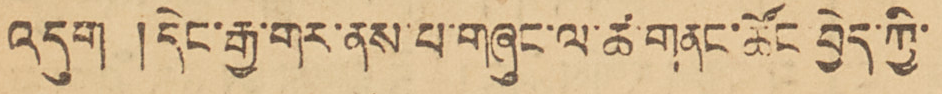འདུག །དེང་རྒྱ་གར་ནས་པ་གཞུང་ལ་ཚ་གནང་ཚོང བྱེད་ཀྱི་
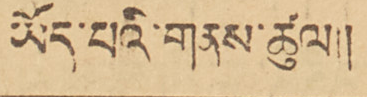ཡོད་པའི་གནས་ཚུལ།།
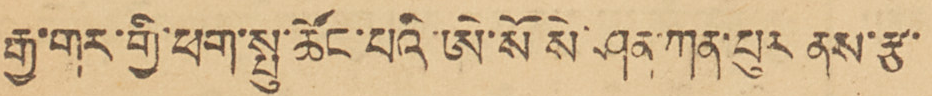རྒྱ་གར་གྱི་ཕག་སྤུ་ཚོང་པའི་ཨེ་སོ སེ་ཤན་ཀན་པུར ནས་རྩ་
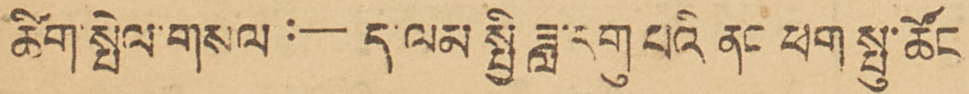ཚིག་སྤེལ་གསལ་:—ད་ལམསྤྱི ཟླ་དགུ པའི ནང ཕག སྤུ་ཚོང
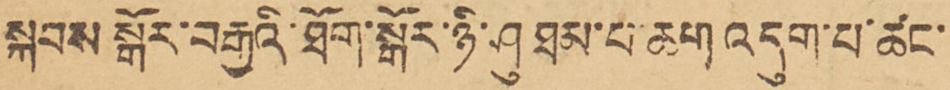སྐབས སྒོར་བརྒྱའི་ཐོག་སྒོར་ཉི་ཤུ ཐམ་པ་ཆག་འདུག་པ་ཚང་
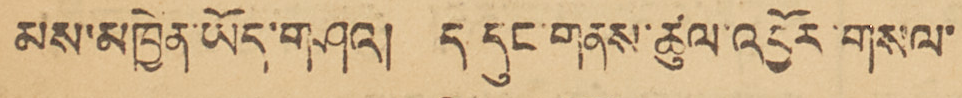མས་མཁྱེན་ཡོད་གཤའ། ད དུང་གནས་ཚུལ་འབྱོར་གསལ་
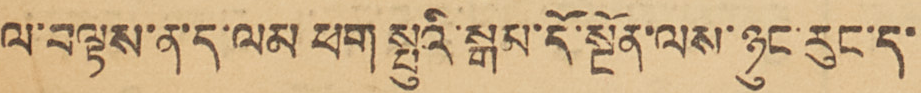ལ་བལྟས་ན་ད་ལམ ཕག སྤུའི་སྒམ་དོ་སྔོན་ལས་ཉུང་རུང་ད་
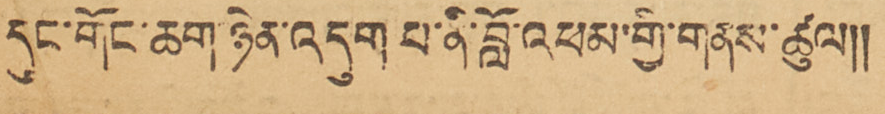དུང་གོང་ཆག་ཉེན་འདུག པ་ནི་བློ་འཕམ་གྱི་གནས་ཚུལ།།
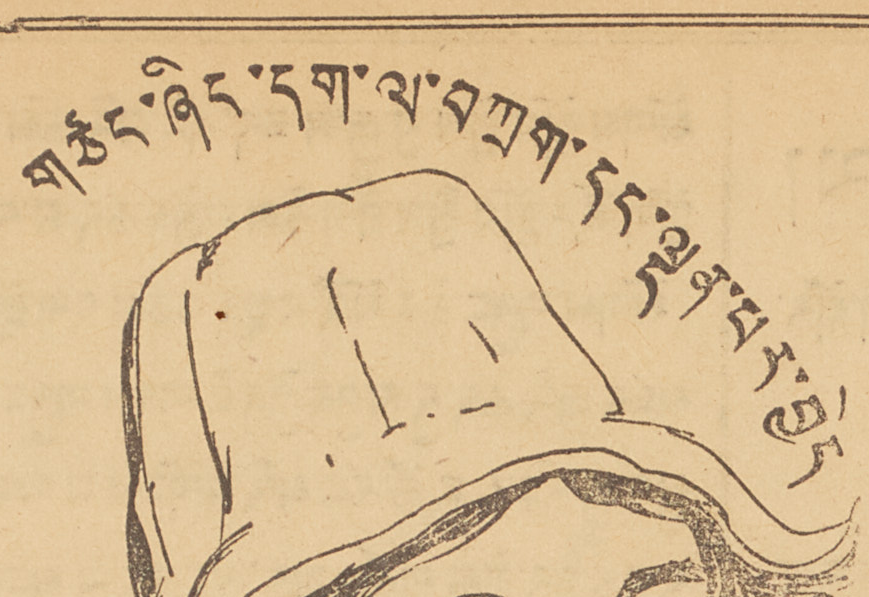གཙང་ཞིང་དག་ལ་བཀྲག་དང་ལྡན་པར་བྱེད
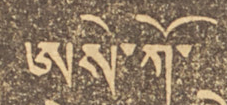ཨསེ་ཀོ་
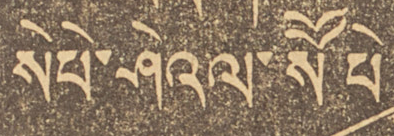སེཔེ་ཤེའལ་སོཔེ
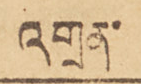འགྲན་
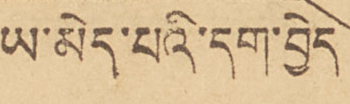ཡ་མེད་པའི་དག་བྱེད
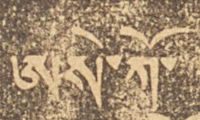ཨསི་ཀོ་
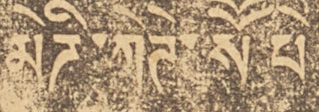མེཌི་ཀྲཊ་སོ་པེ
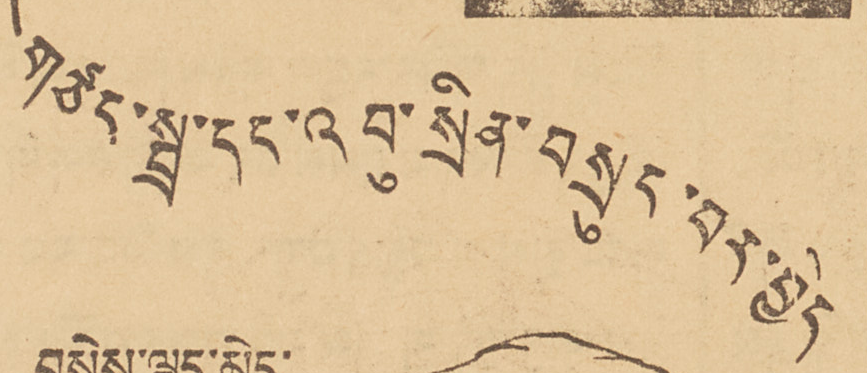གཙང་སྦྲ་དང་འབུ་སྲིན་བསྲུང་བར་བྱེད
